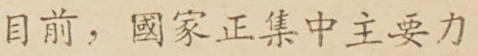目前，國家正集中主要力
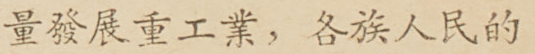量發展重工業，各族人民的
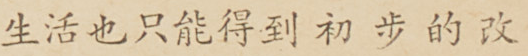生活也只能得到初步的改
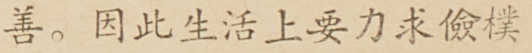善。因此生活上要力求儉樸
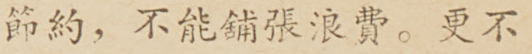節約，不能鋪張浪費。更不
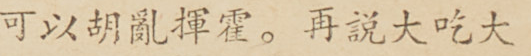可以胡亂揮霍。再說大吃大
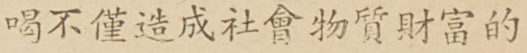喝不僅造成社會物質財富的
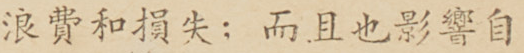浪費和損失；而且也影響自
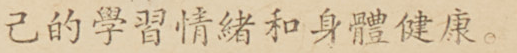己的學習情緒和身體健康。
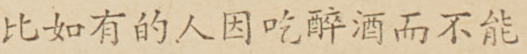比如有的人因吃醉酒而不能
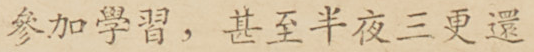參加學習，甚至半夜三更還
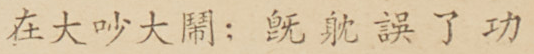在大吵大鬧；旣躭誤了功
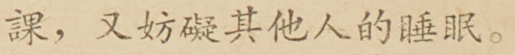課，又妨礙其他人的睡眠。
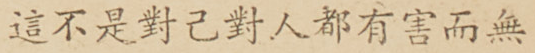這不是對己對人都有害而無
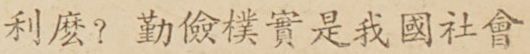利麼？勤儉樸實是我國社會
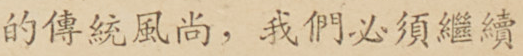的傳統風尚，我們必須繼續
